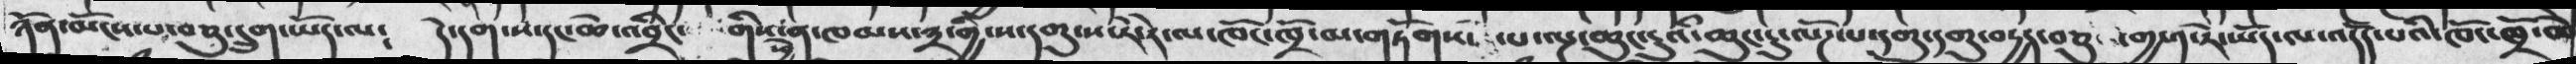ཉོན་མོངས་པ་བཅུ་དྲུག་ཡོད་ལ༴   དེ་དག་ས་དང་ཆེ་འབྲིང་   གིས་ཕྱེ་ན་ཁམས་༣་གྱི་ས་དགུ་ས་རེ་རེ་ལ་ཁོང་ཁྲོ་མ་གཏོགས་ པ་ལྔ་ཆུང་ངུའི་ཆུང་ངུ་ལོཌ་པ་དགུ་དགུ་བདྱད་བཅུ་  གྱ་༡་རེ་ཡོད་ལ་འདོད་པའི་ཁོང་ཁྲོ་ཆེ
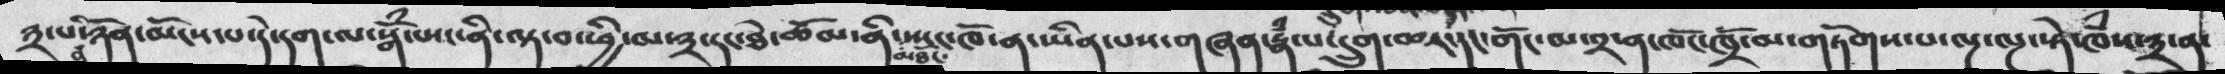༣་པའི་ཉོན་མོངས་པ་དེ་དག་ལ་སྒོཾ་པས་ན་ིལྟ་བ་ཕྱི་མ་༣་དང་ཐེ་ཚོམ་ནི་མཐོང་སྤང་ཁོ་ན་ཡིན་པས་གཞན་རྣཾ་པ་དྲུག་ཆར་དང་གོང་མ་༢་ན་ཁོང་ཁྲོ་མ་གཏོགས་པ་ལྔ་ལྔ་སྟེ་ཁཾས་༣་ན་
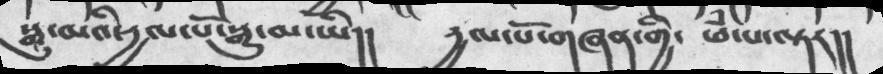སྒྱུ་མའི་དྱལ་པོ་སྒྱུ་མ་ཡི།།   རྱལ་པོ་གཞན་གྱི་   ཕཾ་པ་ལྟར།།
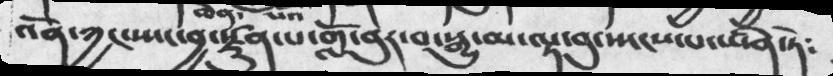འོན་ཀྱང་སྤང་བྱ་རྫུན་པ་གློ་བུར་བ་སྒྱུ་མ་ལྟ་བུ་སྤངས་པ་ཡིན་ཏེ༴
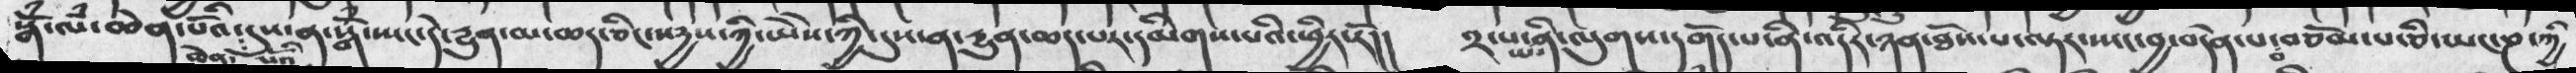སྒོཾ་ལཾ་ཆེན་པོའི་ཆེན་དུས་པོའི་ན་སྒོཾ་སྤང་དེ་དྱུན་མ་ཆད་ཅིང་སདྱས་ཀྱི་ཡེེས་ཀྱི་དུས་ན་དྱུན་ཆད་པར་དམིགས་པའི་ཕྱིར་རོ།།  ༢་པ་ཡིན་ལུགས་དགོད་པ་ནི་འདིར་ཉན་ཐོས་པ་ལྟར་སྤང་བྱ་བདེན་པ་བ་བཅོམ་པ་ཅི་ཡང་ཎ་ཀྱི
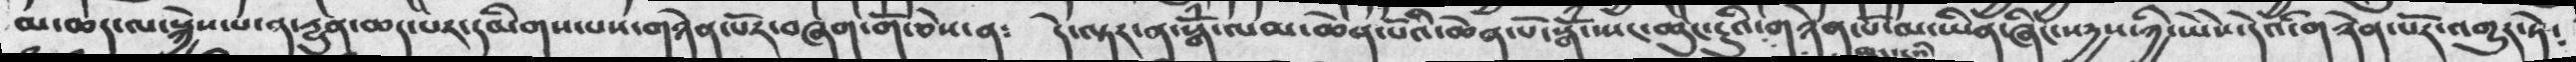མ་ཆད་ལ་སྐྱེས་པ་ན་དྱུན་ཆད་པར་དམིགས་པས་གཉེན་པོ་བཞག་གོ་ཅེས་ན༴  དེ་ལྟར་ན་སྒོཾ་ལམ་ཆེན་པོའི་ཆེན་པོ་སྒོཾ་སྤང་ཆུང་ངུའི་ཆུང་ངུའི་གཉེན་པོ་མ་ཡིན་ཞིང་སདྱས་ཀྱི་ཡེེས་དེའི་གཉེན་པོར་འགྱུར་ཏེ༴
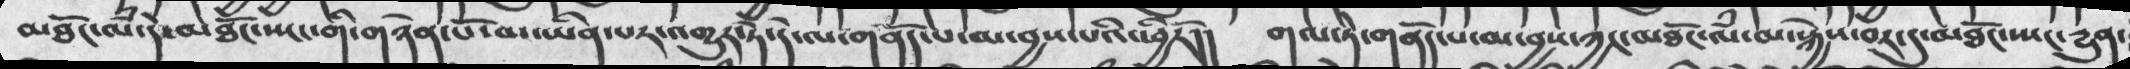མཐོང་ལཾ་དེ་མཐོང་ཡང་གི་གཉེན་པོ་མ་ཡིན་པར་འགྱུར་ཏེ་དེ་ལ་གནོད་པ་མ་བྱས་པའི་ཕྱིརོ།།    གལ་ཏེ་གནོད་པ་མ་བྱས་ཀྱང་མཐོང་ལཾ་མ་སྐྱེས་བར་དུ་མཐོང་ཡང་དྱུན་
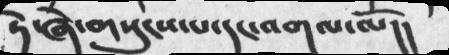དེ་ཞེ་གསུངས་པ་དང་འགལ་ལོ།།
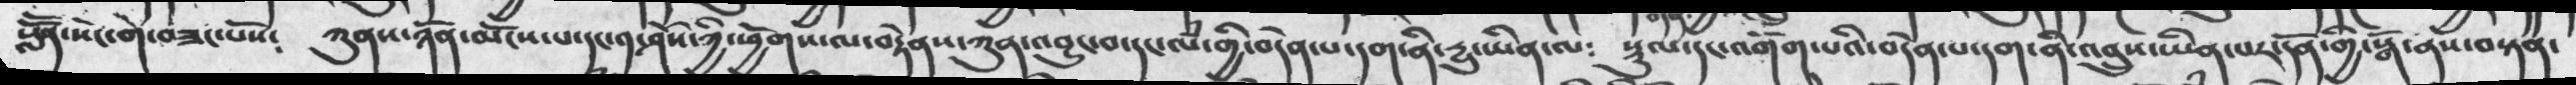སློོན་སེང་གེ་བཟང་པོས༴   ཀུནས་ཉོན་མོངས་པ་དང་༡་ཤོས་ཀྱི་ཕྱོགས་ལ་བརྟེནས་ཀུན་འབྱུང་བ་དང་ལཾ་གྱི་བདེན་པ་དག་ནི་དྱུ་ཡིན་ལ༴   སྟུལ་དང་འགོག་པའི་བདེན་པ་དག་ནི་འབྲུས་ཡིན་པར་དོན་གྱི་སྒོ་ནས་བསྟན་
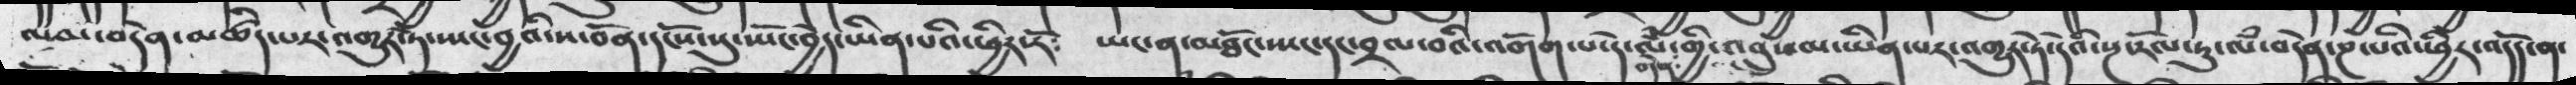ལམ་བདེན་མཚིད་པར་འགྱུར་ཏེ་སྤང་བྱའི་ས་བོན་དངོས་སུ་སྤོང་བྱེད་ཡིན་པའི་ཕྱིར༴   ཡང་ན་མཐོང་སྤང་དང་བྲལ་བའི་འགོག་པ་དེ་ལཾ་བདེན་གྱི་འབྲུས་མ་ཡིན་པར་འགྱུར་ཏེ་དེའི་སྔ་རོལ་ཏུ་ལཾ་བདེན་ཎ་པའི་ཕྱིར་འདོད་ན་
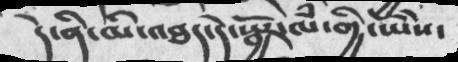དེ་ནི་མི་འཐད་དེ་སྦྱོར་ལཾ་གྱི་ཡེེས་
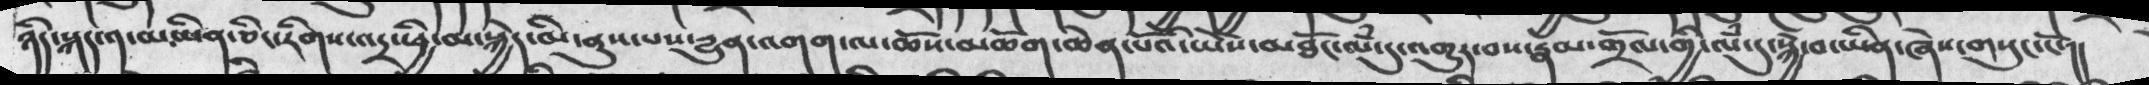ཉིད་སྐད་༡་མ་ཡིན་ཅིང་རིགས་འདྲ་ཕྱི་མ་སྐྱེད་མི་ནུས་པས་དྱུན་འགག་ལ་ཆོས་མཆོག་ཆེན་པོའི་ཡེེས་མཐོང་ལཾ་དུ་འགྱུར་བས་རྣམ་གྲོལ་གྱི་ལཾ་དུ་སྐྱེ་བ་ཡིན་ཞེས་གསུང་ངོ་།།
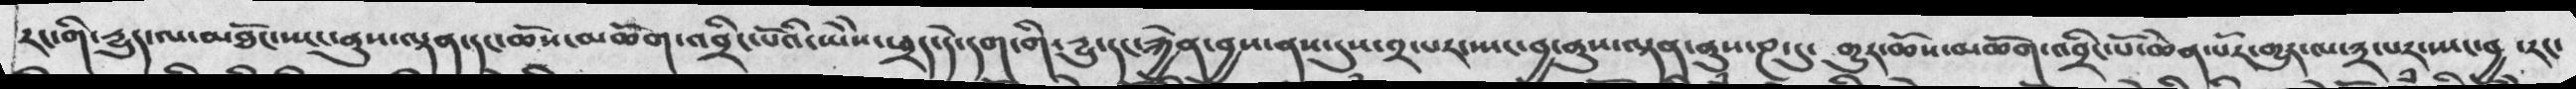རང་གི་རྱུད་ལ་མཐོང་སྤང་ནུས་ལྡན་དང་ཆོས་མཆོག་འབྲིང་པོའི་ཡེེས་ཕྲད་དེ་དག་གི་རྱུ་དང་རྐྱེན་བྱས་ནས་དུས་༢་པར་སྤང་བྱ་ནུས་ལྡན་ནུས་ཎ་དུ་གྱུར་ཆོས་མཆོག་འབྲིང་པོ་ཆེན་པོར་གྱུར་ལ་༣་པར་སྤང་བྱ་  རང་
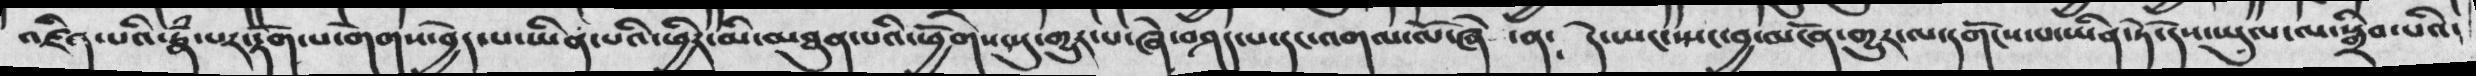འཛིན་པའི་རྣཾ་པར་རྟོག་པ་གེགས་བྱེད་པ་ཡིན་པའི་ཕྱིར་མི་མཐུན་པའི་ཕྱོགས་སུ་གྱུར་པ་ཞེ་བཤད་པ་དང་འགལ་ལོ་ཞེ་ན༴    དེ་ཡང་སྤང་བྱ་མངོན་གྱུར་ལ་དགོངས་པ་ཡིན་ཏེ་དེས་ཡུལ་ལ་སྒྲིབ་པའི་
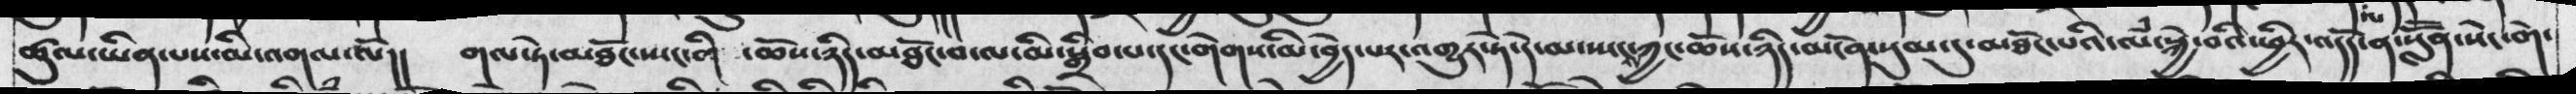ཚུལ་ཡིན་པས་མི་འགལ་ལོ།།  གལ་ཏེ་མཐོང་སྤང་གི ་ཆོས་ཉིད་མཐོང་བ་ལ་མི་སྒྲིབ་པ་དང་གེགས་མི་བྱེད་པར་འགྱུར་ཏེ་དེ་མ་སྤངས་ཀྱང་ཆོས་ཉིད་མངོན་སུམ་དུ་མཐོང་པའི་ལཾ་སྐྱེ་བའི་ཕྱིར་འདོད་ན་སློོན་སེང་གེ་
